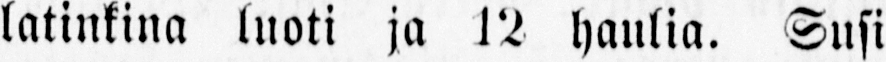latinkina luoti ja 12 haulia. Susi
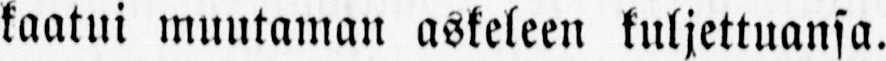kaatui muutaman askeleen kuljettuansa.
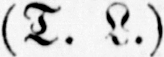(T. L.)
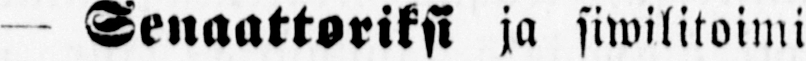— Senaattoriksi ja siwilitoimi-
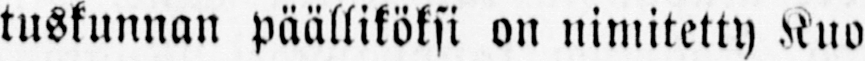tuskunnan päälliköksi on nimitetty Kuo-
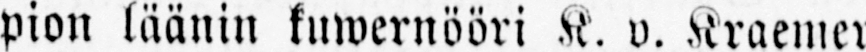pion läänin kuwernööri K. v. Kraemer.
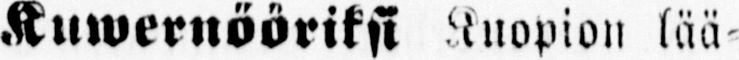— Kuwernööriksi Kuopion lää-
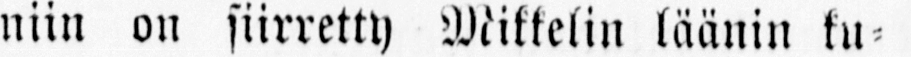niin on siirretty Mikkelin läänin ku-
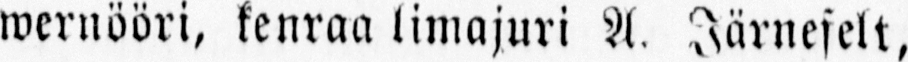wernööri, kenraalimajuri A. Järnefelt,
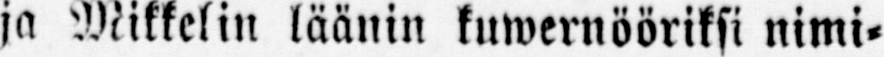ja Mikkelin läänin kuwernööriksi nimi-
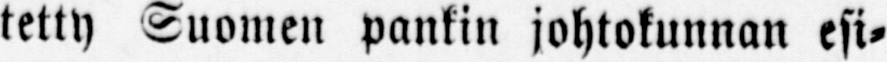tetty Suomen pankin johtokunnan esi-
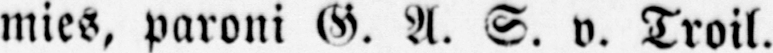mies, paroni G. A. S. v. Troil.
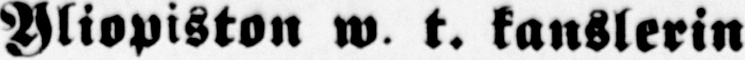— Yliopiston w. t. kanslerin
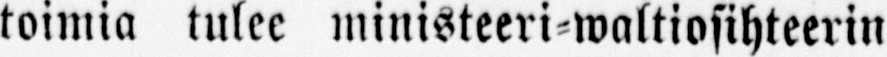toimia tulee ministeeri-waltiosihteerin
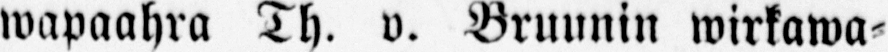wapaahra Th. v. Bruunin wirkawa-
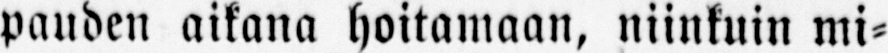pauden aikana hoitamaan, niinkuin mi-
